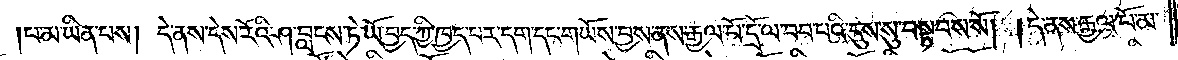།པ་མ་ཡིན་པས། དེ་ནས་དེས་རོའི་ཤ་བླངས་ཏེ་ཡོ་བྱད་ཀྱི་ཁྱད་པར་དག་དང་གཡོས་བྱས་ནས་རྒྱལ་པོ་དྲོལ་བབ་པའི་དུས་སུ་བསྟབས་སོ། །དེ་ནས་རྒྱལ་པོ་མ་
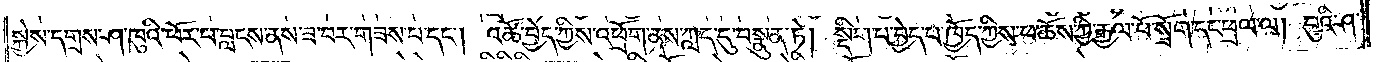སྐྱེས་དགྲས་ཤ་ཁུའི་ཕོར་པ་བླངས་ནས་ཟ་བར་གཟས་པ་དང༌། འཚོ་བྱེད་ཀྱིས་འཕྲོག་ནས་ཀླད་དུ་བསྣུན་ཏེ། སྡིག་པ་བྱེད་པ་ཁྱོད་ཀྱིས་ཕ་ཆོས་ཀྱི་རྒྱལ་པོ་སྲོག་དང་ཕྲལ་ལ། བུའི་ཤ་
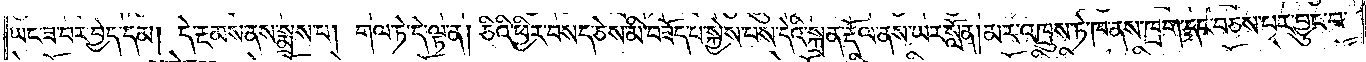ཡང་ཟ་བར་བྱེད་དམ། དེ་རྔམས་ནས་སྨྲས་པ། གལ་ཏེ་དེ་ལྟ་ན། ཅིའི་ཕྱིར་བསད་ཅེས་མི་བཟོད་པ་སྐྱེས་པས་དེའི་སྐྲན་རྡོལ་ནས་ཡར་སློན། མར་འཁྲུས་ཏེ་ཁ་ནས་ཁྲག་དང་བཅས་པར་བྱུང་བ་
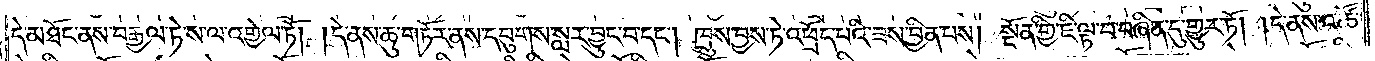དེ་མཐོང་ནས་བརྒྱལ་ཏེ་ས་ལ་འགྱེལ་ཏོ། །དེ་ནས་ཆུ་གཏོར་ནས་དབུགས་སླར་བྱུང་བ་དང༌། ཁྲུས་བྱས་ཏེ་འཕྲོད་པའི་ཟས་བྱིན་པས། སྔོན་གྱི་ཇི་ལྟ་བ་བཞིན་དུ་གྱུར་ཏོ། །དེ་ནས་འཚོ་
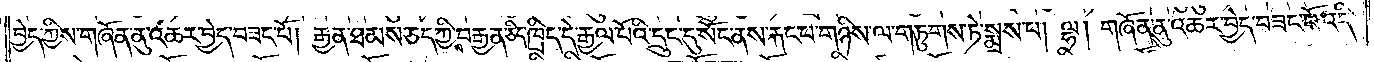བྱེད་ཀྱིས་གཞོན་ནུ་འཆར་བྱེད་བཟང་པོ། རྒྱན་ཐམས་ཅད་ཀྱིས་བརྒྱན་ཅིང་ཁྲིད་དེ་རྒྱལ་པོའི་དྲུང་དུ་སོང་ནས་རྐང་པ་གཉིས་ལ་གཏུགས་ཏེ་སྨྲས་པ། ལྷ། གཞོན་ནུ་འཆར་བྱེད་བཟང་པོ་འདི་
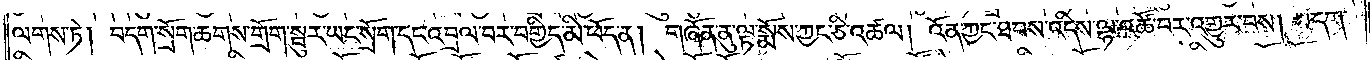ལགས་ཏེ། བདག་སྲོག་ཆགས་གྲོག་སྦུར་ཡང་སྲོག་དང་འབྲལ་བར་བགྱིད་མི་ཕོད་ན། གཞོན་ནུ་ལྟ་སྨོས་ཀྱང་ཅི་འཚལ། འོན་ཀྱང་ཐབས་འདིས་ལྷ་འཚོ་བར་འགྱུར་བས། བདག་
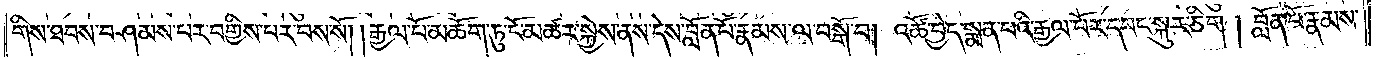གིས་ཐབས་བཤམས་པར་བགྱིས་པར་བས་སོ། །རྒྱལ་པོ་མཆོག་ཏུ་ངོ་མཚར་སྐྱེས་ནས་དེས་བློན་པོ་རྣམས་ལ་བསྒོ་བ། འཚོ་བྱེད་སྨན་པའི་རྒྱལ་པོར་དབང་སྐུར་ཅིག །བློན་པོ་རྣམས་
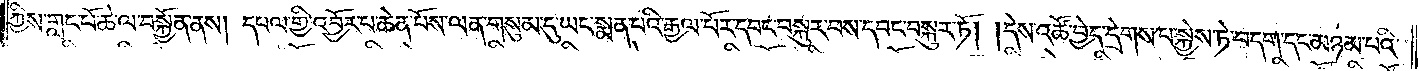ཀྱིས་གླང་པོ་ཆེ་ལ་བསྐྱོན་ནས། དཔལ་གྱི་འབྱོར་པ་ཆེན་པོས་ལན་གསུམ་དུ་ཡང་སྨན་པའི་རྒྱལ་པོར་དབང་བསྐུར་བས་དབང་བསྐུར་ཏོ། །དེས་འཚོ་བྱེད་དྲེགས་པ་སྐྱེས་ཏེ་བདག་དང་མཉམ་པའི་
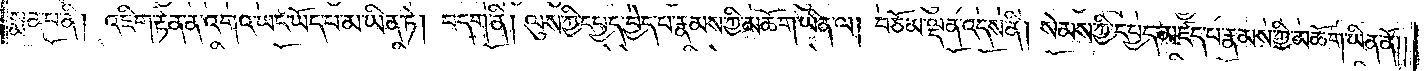སྨན་པ་ནི། འཇིག་རྟེན་ན་འགའ་ཡང་ཡོད་པ་མ་ཡིན་ཏེ། བདག་ནི། ལུས་ཀྱི་དཔྱད་བྱེད་པ་རྣམས་ཀྱི་མཆོག་ཡིན་ལ། བཅོམ་ལྡན་འདས་ནི། སེམས་ཀྱི་དཔྱད་མཛད་པ་རྣམས་ཀྱི་མཆོག་ཡིན་ནོ། །
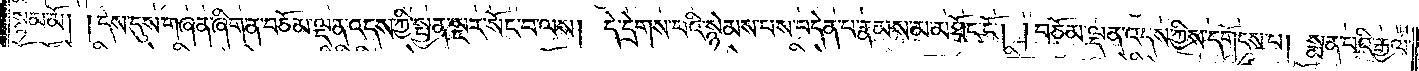སྙམ་མོ། །དེས་དུས་གཞན་ཞིག་ན་བཅོམ་ལྡན་འདས་ཀྱི་སྤྱན་སྔར་སོང་བ་ལས། དེ་དྲེགས་པའི་སྙེམས་པས་བདེན་པ་རྣམས་མ་མཐོང་ངོ༌། །བཅོམ་ལྡན་འདས་ཀྱིས་དགོངས་པ། སྨན་པའི་རྒྱལ་
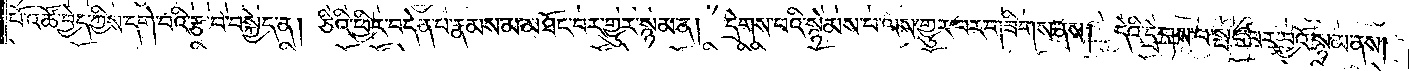པོ་འཚོ་བྱེད་ཀྱིས་དགེ་བའི་རྩ་བ་བསྐྱེད་ན། ཅིའི་ཕྱིར་བདེན་པ་རྣམས་མ་མཐོང་བར་གྱུར་སྙམ་ན། དྲེགས་པའི་སྙེམས་པ་ལས་གྱུར་པར་གཟིགས་ནས། དེའི་དྲེགས་པ་སྤང་བར་བྱའོ་སྙམ་ནས།
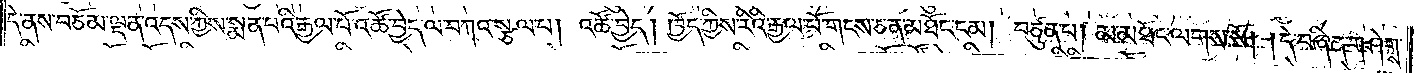དེ་ནས་བཅོམ་ལྡན་འདས་ཀྱིས་སྨན་པའི་རྒྱལ་པོ་འཚོ་བྱེད་ལ་བཀའ་སྩལ་པ། འཚོ་བྱེད། ཁྱོད་ཀྱིས་རིའི་རྒྱལ་པོ་གངས་ཅན་མཐོང་ངམ། བཙུན་པ། མ་མཐོང་ལགས་སོ། །དེ་བཞིན་གཤེགས་
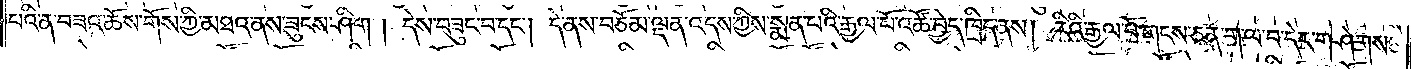པའི་ན་བཟའ་ཆོས་གོས་ཀྱི་མཐའ་ནས་ཟུངས་ཤིག །དེས་བཟུང་བ་དང༌། དེ་ནས་བཅོམ་ལྡན་འདས་ཀྱིས་སྨན་པའི་རྒྱལ་པོ་འཚོ་བྱེད་ཁྲིད་ནས། རིའི་རྒྱལ་པོ་གངས་ཅན་ག་ལ་བ་དེར་གཤེགས་
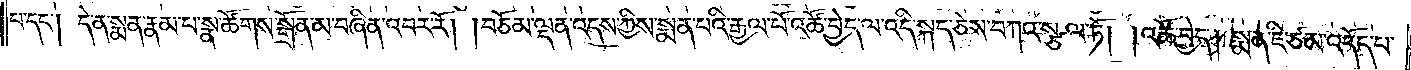པ་དང༌། དེ་ན་སྨན་རྣམ་པ་སྣ་ཚོགས་སྒྲོན་མེ་བཞིན་འབར་རོ། །བཅོམ་ལྡན་འདས་ཀྱིས་སྨན་པའི་རྒྱལ་པོ་འཚོ་བྱེད་ལ་འདི་སྐད་ཅེས་བཀའ་སྩལ་ཏོ། །འཚོ་བྱེད། སྨན་ཇི་ཙམ་འདོད་པ་
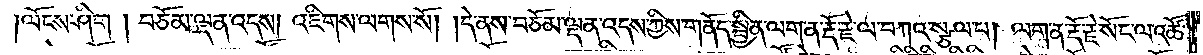།ལོངས་ཤིག །བཅོམ་ལྡན་འདས། འཇིགས་ལགས་སོ། །དེ་ནས་བཅོམ་ལྡན་འདས་ཀྱིས་གནོད་སྦྱིན་ལག་ན་རྡོ་རྗེ་ལ་བཀའ་སྩལ་པ། ལག་ན་རྡོ་རྗེ་སོང་ལ་འཚོ་
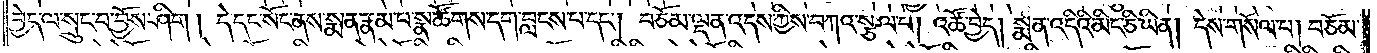བྱེད་ལ་སྲུང་བ་བྱོས་ཤིག །དེ་དང་སོང་ནས་སྨན་རྣམ་པ་སྣ་ཚོགས་དག་བླངས་པ་དང༌། བཅོམ་ལྡན་འདས་ཀྱིས་བཀའ་སྩལ་པ། འཚོ་བྱེད། སྨན་འདིའི་མིང་ཅི་ཡིན། དེས་གསོལ་པ། བཅོམ་
